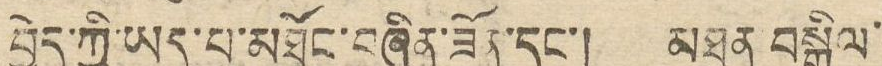བྱེད་ཀྱི་ཡོད་པ་མཐོང་བཞིན་ཟོན་དང་། མཐུན བསྒྲིལ་
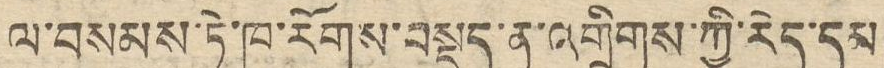ལ་བསམས་ཏེ་ཁ་རོགས་བསྡད་ན་འགྲིགས་ཀྱི་རེད་དམ
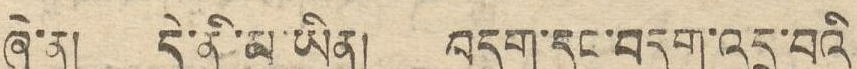ཞེ་ན། དེ་ནི་མ་ཡིན། བདག་དང་བདག་འདྲ་བའི
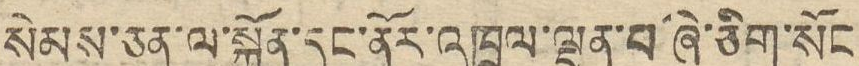སེམས་ཅན་ལ་སྐྱོན་དང་ནོར་འཁྲུལ་ལྡན་པ་ཞི་ཅིག་སོང
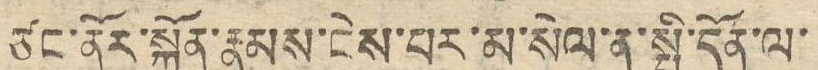ཙང་ནོར་སྐྱོན་རྣམས་ངེས་པར་མ་སེལ་ན་སྤྱི་དོན་ལ་
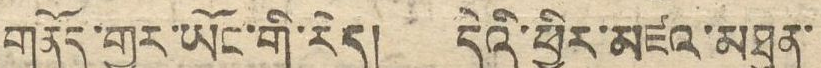གནོད་གྱུར་ཡོང་གི་རེད། དེའི་ཕྱིར་མཛའ་མཐུན་
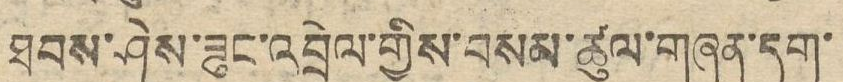ཐབས་ཤེས་ཟུང་འབྲེལ་གྱིས་བསམ་ཚུལ་གཞན་དག་
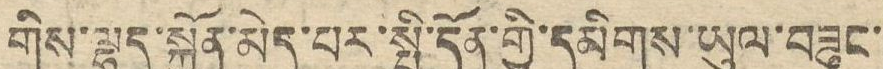གིས་ལྷད་སྐྱོན་མེད་པར་སྤྱི་དོན་གྱི་དམིགས་ཡུལ་བཟུང་
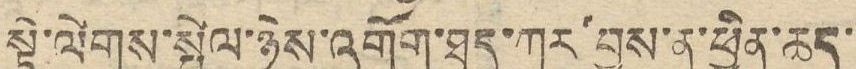སྟེ་ལེགས་སྤེལ་ཉེས་འགོག་ཐད་ཀར་བྱས་ན་ཕྱིན་ཆད་
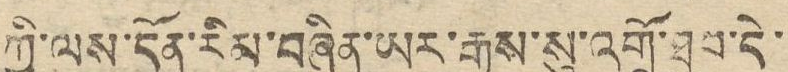ཀྱི་ལས་དོན་རིམ་བཞིན་ཡར་རྒྱས་སུ་འགྲོ་ཐུབ་དེ་
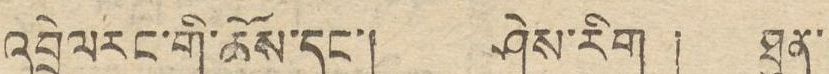འབྲེལརང་གི་ཆོས་དང་། ཤེས་རིག ། ཐུན་
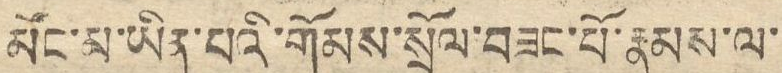མོང་མ་ཡིན་པའི་གོམས་སྲོལ་བཟང་པོ་རྣམས་ལ་
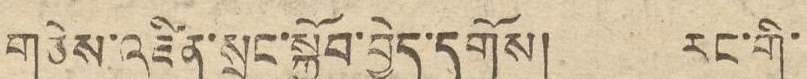གཅེས་འཛིན་སྲུང་སྐྱོབ་བྱེད་དགོས། རང་གི་
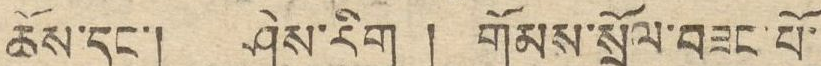ཆོས་དང་། ཤེས་རིག ། གོམས་སྲོལ་བཟང་པོ་
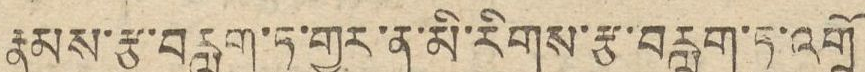རྣམས་རྩ་བརླག་ཏུ་གྱུར་ན་མི་རིགས་རྩ་བརླག་ཏུ་འགྲོ
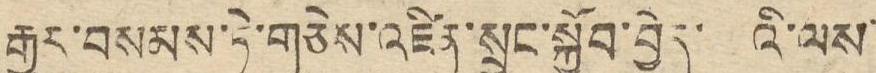རྒྱུར་བསམས་ཏེ་གཅེས་འཛིན་སྲུང་སྐྱོབ་བྱེད་པའི་ལས་
